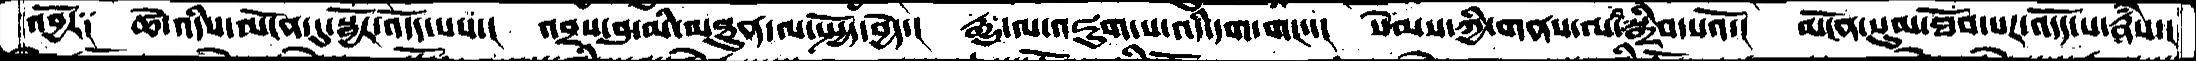འབྱོར༑ ཚེ་འདིས་མངོན་དུ་སྦྱོར་འདོད་པས་།  འབྲས་བུ་མི་མཐུན་ལ་སྤྱོད་བྱེད་།  རྒྱུ་ལ་འཇུག་པ་འདི་དག་གང་།  སེམས་ཀྱི་གནས་ལ་སྒྲིབ་པའོ་།  མངོན་སུམ་ཐོབ་པར་འདོད་པ་རྣཾས་།
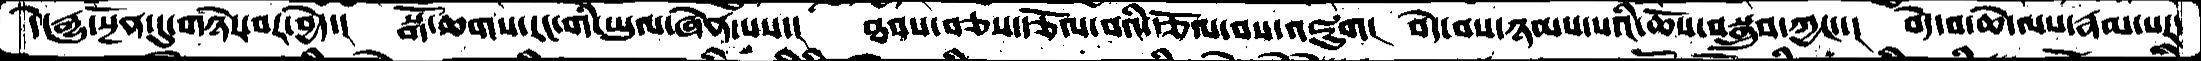དེ་རྒྱུ་སྔོན་དུ་གཉེར་བར་བྱེད་།  སྒོ་ཆགས་རང་གི་ཡུལ་ཞེན་པས་།  ཐབས་བཅས་རྩོལ་བའི་རྩོལ་བས་འཇུག།  བདེ་བས་ཉམས་པའི་ཆོས་བསྒྲུབ་ཀྱང་་།  བདེ་བ་ཆེ་ལས་རྣམ་པར་
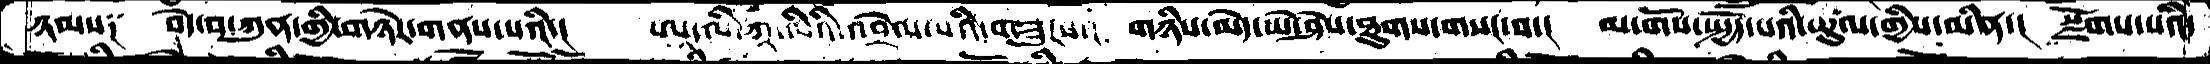ཉམས༑  བདེ་བ་ཀུན་གྱི་གཉེར་གནས་པའི་།  ཨཱ་ལི་ཀཱ་ལིའི་འབྲེལ་པའི་གཟུངས་།  གཉིས་མེད་ཡེ་ཤེས་ཐུགས་གསང་བ་།  མ་གོས་སྤྱོད་པའི་ཚུལ་གྱིས་མིན་།  སྫོགས་པའི་
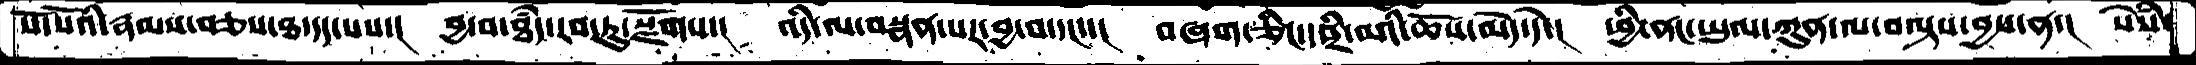སོ་སོའི་རྣམས་བཅས་ཐ་དད་པས་་།  བྱ་བ་ཐཾད་རབ་ཏུ་སྫོགས་།  འདི་ལ་བསྣན་པར་བྱ་བ་དང་།  བཞག་ཅིང་བྲི་བའི་ཆོས་མེད་དེ་།  ཕྱི་ནང་ཡུལ་ཀུན་ལ་བལྟས་བྱས་ན་།  སེཾས་
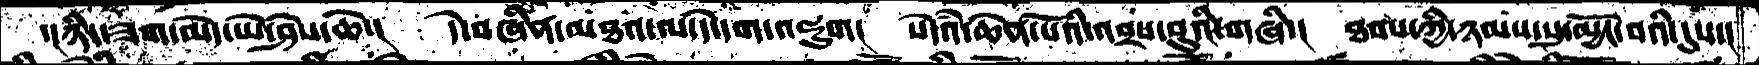་།ཉིད་ཟག་མེད་ཡེ་ཤེས་ཆེ་།  དེ་བཞིན་མཐའ་ལ་དེ་དག་འཇུག།  སེདཾའ་ཆེན་པོའི་འབྲས་བུའི་གཞི་།  ཐབས་ཀྱི་ཉམས་སུ་མྱོང་བའི་དུས་།
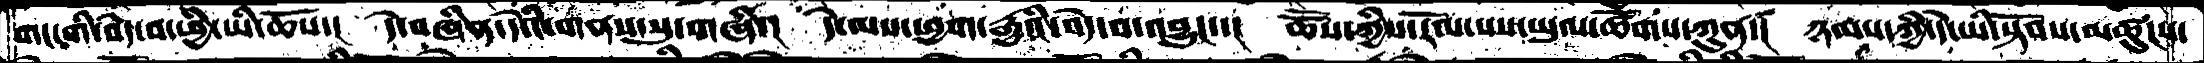གང་གི་བདེ་བ་ཕྱི་ཡི་ཆོས་།  དེ་བཞིན་དེའི་གནས་སུ་གཞི་།  དེ་ལས་ཕྱག་རྒྱའི་བདེ་བ་འབྱུང་་།  ཆཽས་ཀྱིས་རོལ་པས་ཡུལ་ཚོགས་ཀུན་།  ཉམས་ཀྱི་དེ་ཡི་སྟོབས་མཚུངས་
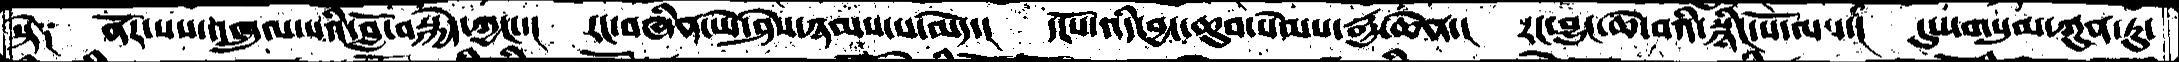སྟེ༑   ནོར་པས་འཁྲུལ་པའི་བློ་བསྐྱེད་ཀྱང་།   རང་བཞིན་ཡེ་ཤེས་ཉམས་པ་མེད་།  དངོས་འདི་བྱང་ཆུབ་སེམས་རྒྱ་ཆེན་།  རང་བྱུང་ཆེ་བའི་སྙིང་པོ་ལས་།  དུས་གསུམ་ཀུན་ཏུ་
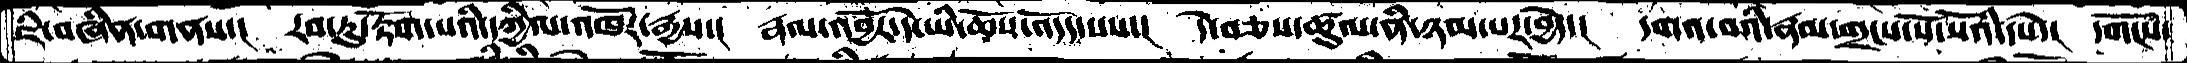ཇི་བཞིན་གནས་།  རབ་ཏུ་རྟོག་པའི་དཀྱིལ་འཁོར་རྒྱས་།  རྣལ་འབྱོར་དེ་ཡི་ཆོས་འདོད་པས་།   དེ་བཅས་ཚུལ་ནི་ཉམ་པར་བྱེད་།  དགའ་བའི་རྣམ་གྲངས་སོ་སོའི་དཔེ་།  དགོངས་
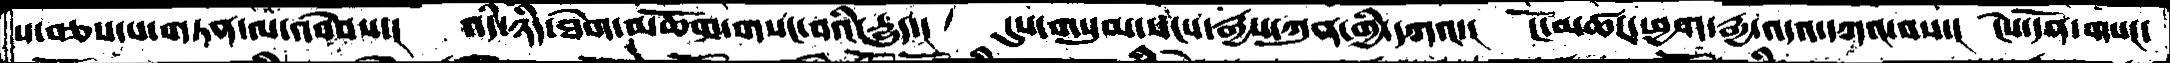ས་བཅས་ས་གཏན་ལ་འབེབས་།  འདི་ཉིད་ཐེག་མཆོག་གསང་བའི་དྱུད་།  དུས་གསུམ་སངས་རྒྱས་ཀུན་གྱི་དགའ་།  ངོ་མཚར་ཕྱག་རྒྱ་འདའ་དཀའ་བས་།  ངེས་དོན་གསང་
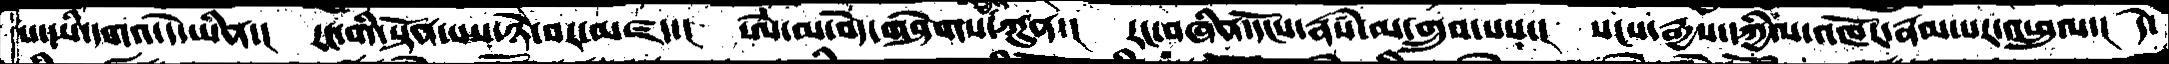ས་ཡི་དགའ་དེ་ཡིན་།  རང་གི་སྟོན་པས་ཉེ་བར་མཛད་།  ཨེ་མ་བདེ་གཤེགས་ཀུན་།  རང་བཞིན་དངོས་རྣཾས་མ་གྲུབ་པས་།  སངས་རྒྱས་དཀྱིལ་འཁོར་རྣམ་པར་འཕྲུལ་།  དེ་
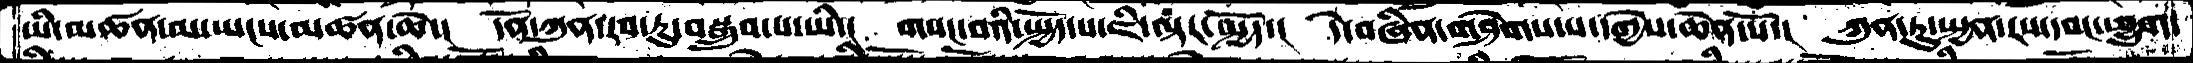ཡི་མཚན་མ་ཡངས་མཚན་ཆེ་།  དོན་ཀུན་རབ་ཏུ་བསྒྲུབ་པ་ཡི་།  གསང་བའི་སྤྱོད་པ་ཇི་ལྟར་སྤྱོད་།  དེ་བཞིན་གཤེགས་པ་དགྱེས་ཆེན་པོ་།  ཀུན་ཏུ་སྤྱན་རས་དབང་ཕྱུག
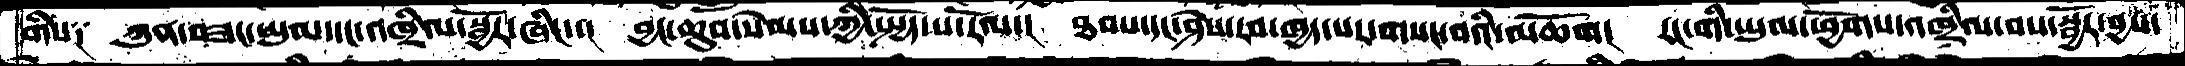གིས༑  ཀུན་བཟང་ཡུམ་དང་འཁྲིལ་སྦྱོར་ཞིང་་།  བྱང་ཆུབ་སེམས་ཀྱི་སྤྱོད་པ་རོལ་།   ཐབས་དང་ཤེས་རབ་ཁྱད་པར་གསང་བའི་མཆོག།  རང་གི་ཡུལ་ཕྱོགས་འཁྲིལ་བས་སྦྱོར་བྱས་
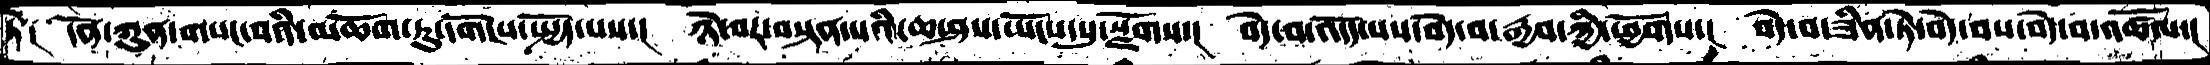ཏེ།  དོན་ཀུན་གསང་བའི་མཆོག་ཏུ་དགོངས་སྤྱོད་པས་།   ཉེ་བར་བསྟན་པའི་ཆ་ཤས་ཡོངས་སུ་སྫོགས་།   བདེ་བ་འདོད་པས་བདེ་བ་རྒྱབ་ཀྱི་ཕྱོགས་།  བདེ་བ་ཟིན་ཏེ་བདེ་བས་བདེ་བ་འཚོལ་།
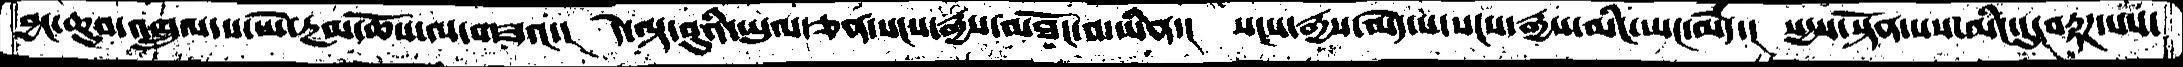བྱང་ཆུབ་འཁྲུལ་ས་ཡེ་རྔམ་ཆོས་ལ་གཟའ་།   དེ་ལྟ་བུའི་ཡུལ་ཅན་སངས་རྒྱས་མཐོང་བ་ཡིན་།  སངས་རྒྱས་མེད་པ་སངས་རྒྱས་མིང་ཡང་མེད་།  སདྱས་སྟོན་པས་མིང་དུ་བརྟཌ་པས་
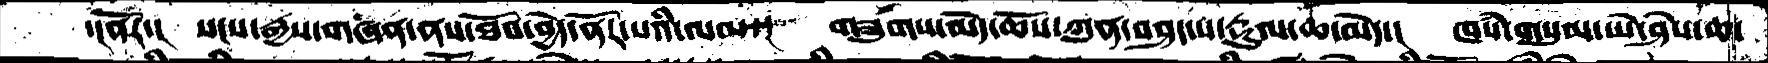་།ནོར་།  སངས་རྒྱས་གཞན་ནས་ཐོབ་བྱེད་ནོར་པའི་ལམ་།  གཟུགས་མེད་ཆོས་ཀུན་བཤད་པ་རྡུལ་ཆ་མེད་།  ཁཾས་གསུམ་ཡེ་ཤེས་ཆ་
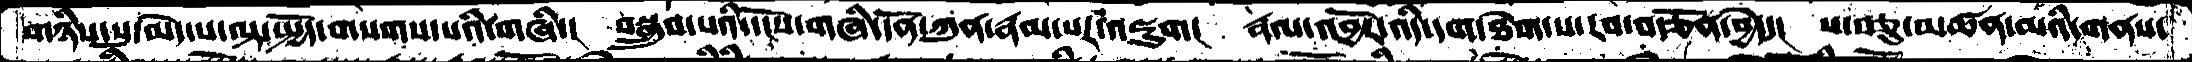གཉིས་སུ་མེད་པ་ལྟ་སྤྱོད་གསགས་པའི་གཞི་།   བསྒྲུབ་པའི་དངོས་གཞི་དོན་ཀུན་རྣམ་པར་འཇུག།  རྣལ་འབྱོར་འདི་དག་ཐེག་པ་རབ་བརྩོན་བྱེད་།   ས་བཅུ་མཚན་མའི་གནས་
